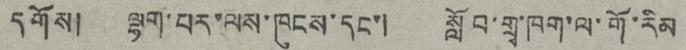དགོས། ལྷག་པར་ལས་ཁུངས་དང་། སློབ་གྲྭ་ཁག་ལ་གོ་རིམ་
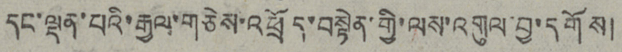དང་ལྡན་པའི་རྒྱལ་གཅེས་འཕྲོད་བསྟེན་གྱི་ལས་འགུལ་བྱ་དགོས།
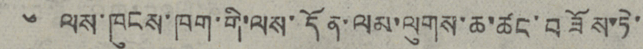༦ ལས་ཁུངས་ཁག་གི་ལས་དོན་ལམ་ལུགས་ཆ་ཚང་བཟོས་ཏེ་་
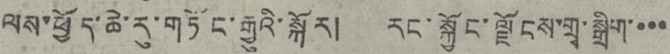ལས་ཕྱོད་ཆེ་རུ་གཏོང་རྒྱུའི་སྐོར། རང་སྐྱོང་ལྗོངས་གྲྭ་སྒྲིག་་་་
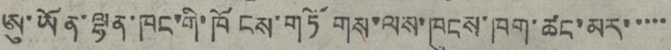ཨུ་ཡོན་ལྷན་ཁང་གི་ཁོངས་གཏོགས་ལས་ཁུངས་ཁག་ཚང་མར་་་་་
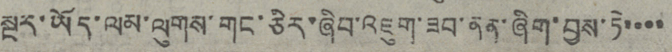སྔར་ཡོད་ལམ་ལུགས་གང་ཅིར་ཞིབ་འཇུག་ཟབ་ནན་ཞིག་བྱས་ཏེ་་་་
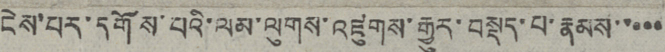ངེས་པར་དགོས་པའི་ལམ་ལུགས་འཛུགས་རྒྱུར་བསྡད་པ་རྣམས་་་་་་
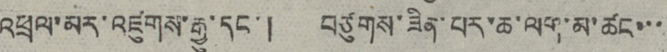འཕྲལ་མར་འཛུགས་རྒྱུ་དང་། བཙུགས་ཟིན་པར་ཆ་ལག་མ་ཚང་་་་
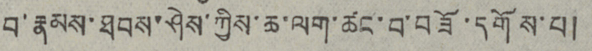བ་རྣམས་ཐབས་ཤེས་ཀྱིས་ཆ་ལག་ཚང་བ་བཟོ་དགོས་པ།
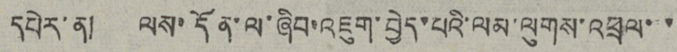དཔེར་ན། ལས་དོན་ལ་ཞིབ་འཇུག་བྱེད་པའི་ལམ་ལུགས་འཕྲལ་་་
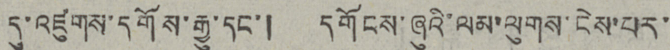དུ་འཛུགས་དགོས་རྒྱུ་དང་། དགོངས་ཞུའི་ལམ་ལུགས་ངེས་པར་་
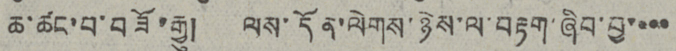ཆ་ཚང་བ་བཟོ་རྒྱུ། ལས་དོན་ལེགས་ཉེས་ལ་བརྟག་ཞིབ་བྱ་་་་
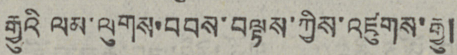རྒྱུའི ལམ་ལུགས་བབས་བལྟས་ཀྱིས་འཛུགས་རྒྱུ།
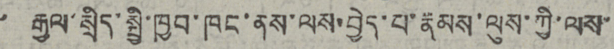རྒྱལ་སྲིད་སྤྱི་ཁྱབ་ཁང་ནས་ལས་བྱེད་པ་རྣམས་ལུས་ཀྱི་ལས་་
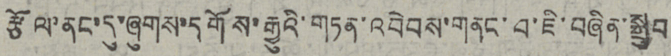རྩོལ་ནང་དུ་ཞུགས་དགོས་རྒྱུའི་གཏན་འབེབས་གནང་བ་ཇི་བཞིན་སྒྲུབ་
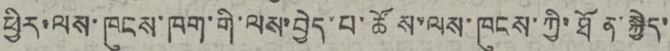ཕྱིར་ལས་ཁུངས་ཁག་གི་ལས་བྱེད་པ་ཚོས་ལས་ཁུངས་ཀྱི་ཐོན་སྐྱེད་་
